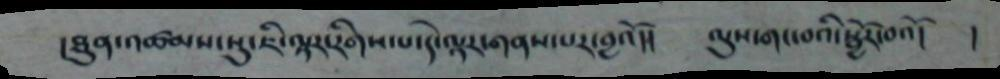།ཐུན་འཚམས་སུ་ཇི་ལྟར་རིགས་པ་དེ་ལྟར་གནས་པར་བྱའོ།། ལུས་གང་བའི་སྦྱོར་བའོ། །
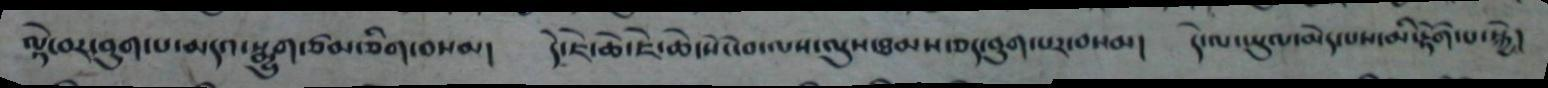ལྟེ་བར་བུག་པ་མདའ་སྨྱུག་ཙམ་ཅིག་བསམ། དེ་ཇེ་ཆེ་ཇེ་ཆེ་སོང་བ་ལས་ལུས་ཐམས་ཅད་བུག་པར་བསམ། དེ་ལ་ཡུལ་མེད་པས་མི་རྟོག་པ་སྐྱེ།
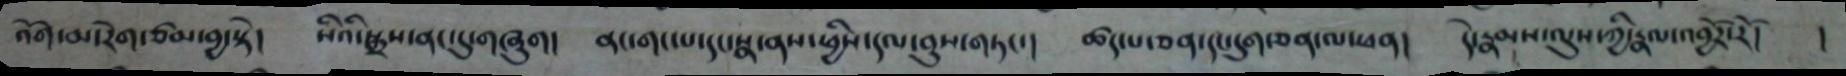འོག་མ་རེག་ཙམ་བྱ་སྟེ། སིའི་སྒྲས་ནང་དུ་གཞུག། ནང་གང་པ་དང་སྣ་ནས་ཕྱིས་དལ་བུས་གཏང་། ཚད་པ་ཅན་དུ་དུག་ཅན་ལ་ཕན། དེ་རྣམས་ལུས་ཀྱི་རྣལ་འབྱོར་རོ། །
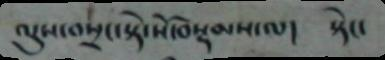ལུས་བསྲང་སྟེ་སོ་བསྡམས་ལ། སྟེང་
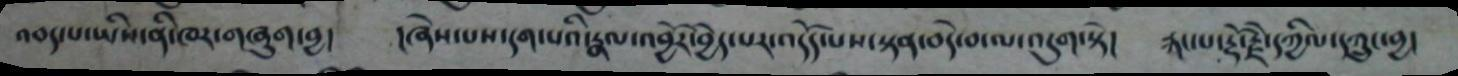འབད་པ་ཡིས་ནི་ཁར་གཞུག་བྱ། །ཞེས་པས་དག་པའི་རྣལ་འབྱོར་བྱེད་པར་འདོད་པས་སྟན་བདེ་བ་ལ་འདུག་སྟེ། རྐང་པ་རྡོ་རྗེ་དཀྱིལ་དཀྲུང་བྱ།
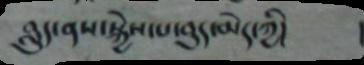བླུད་ནས་སྐྱེས་པ་བུད་མེད་ཀྱི།
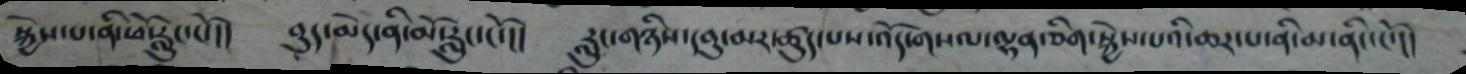སྐྱེས་པ་ནི་ཕོ་རླུང་ངོ་། བུད་མེད་ནི་མོ་རླུང་ངོ་། རླུང་གཉིས་དབུ་མར་ཚུད་པས་འོག་གསལ་ལྷན་ཅིག་སྐྱེས་པའི་ཆར་པ་ནི་མ་ནིང་ངོ་།།
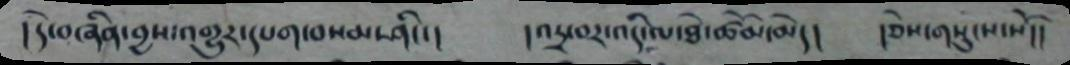།དེ་བཞིན་བྱས་འགྱུར་དཔག་བསམ་ཤིང་། །འདྲ་བར་འདི་ལ་ཐེ་ཚོམ་མེད། །ཅེས་གསུངས་སོ།།
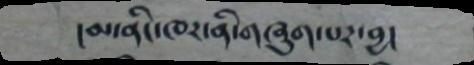།མ་ནིང་ཁར་ནི་གཞུག་པར་བྱ།
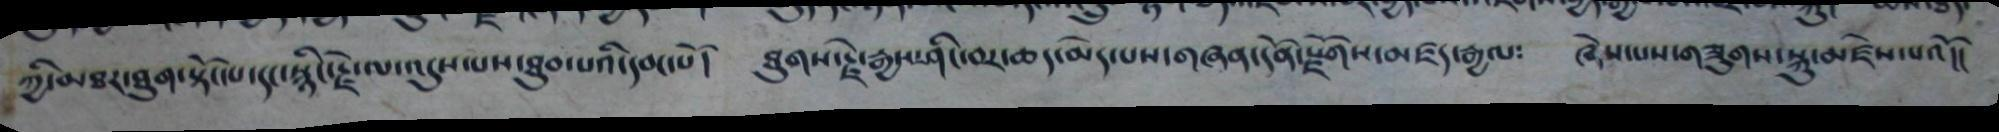ཀྱི་མཐར་ཐུག་སྟོང་པ་དང་སྙིང་རྗེ་ལ་འདུས་པས་ཐུབ་པའི་དབང་པོ། ཐུགས་རྗེ་རྒྱས་ཤིང་བར་ཆད་མེད་པས་གཞན་དོན་སྫོགས་མཛད་རྒྱལ༴ ཞེས་པས་གཟུགས་སྐུ་མཛེས་པའོ།།
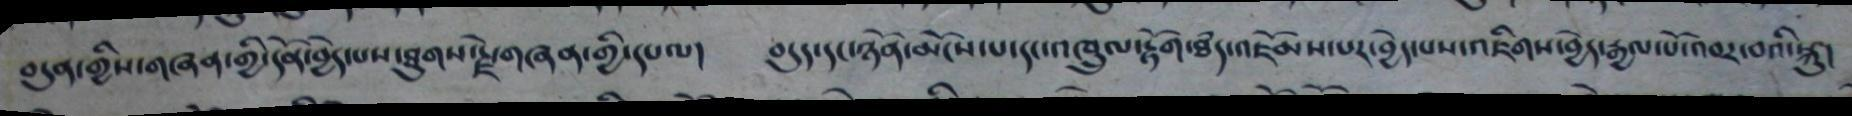བདུན་གྱིས་གཞན་གྱི་དོན་བྱེད་པས་ཐུགས་རྗེ་གཞན་གྱི་དཔལ། བདུད་དང་ཉོན་མོངས་པ་དང་འཁྲུལ་རྟོག་ཐཾད་འཇོམས་པར་བྱེ་དཔས་འཇིགས་བྱེད་རྒྱལ་པོ་འབར་བའི་སྐུ།
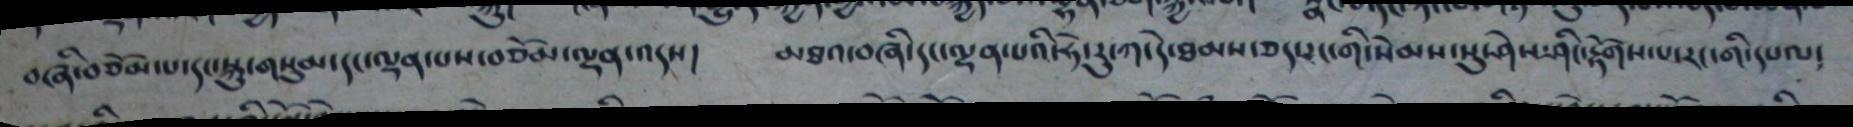བཞི་བཅོམ་པ་དང་སྐུ་གསུམ་དང་ལྡན་པས་བཅོམ་ལྡན་འདས། མཐའ་བཞི་དང་ལྡན་པའི་ཧེ་རུ་ཀ་དེ་ཐམས་ཅད་རང་གི་སེམས་སུ་ཤེས་ཤིང་རྟོགས་པ་རང་གི་དཔལ།
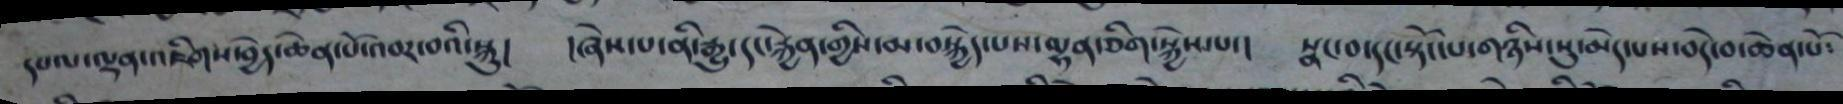དཔལ་ལྡན་འཇིགས་བྱེད་ཆེན་པོ་འབར་བའི་སྐུ། །ཞེས་པ་ནི་རྒྱུ་དང་རྐྱེན་གྱིས་མ་བསྐྱེད་པས་ལྷན་ཅིག་སྐྱེས་པ་། སྣང་བ་དང་སྟོང་པ་གཉིས་སུ་མེད་པས་བདེ་བ་ཆེན་པོ༴
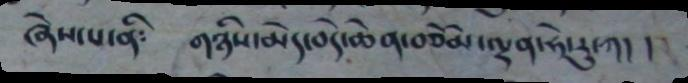ཞེ་ོཔ་ནི༴ གཉིས་མེད་བདེ་ཆེན་བཅོམ་ལྡན་ཧེ་རུ་ཀ། །
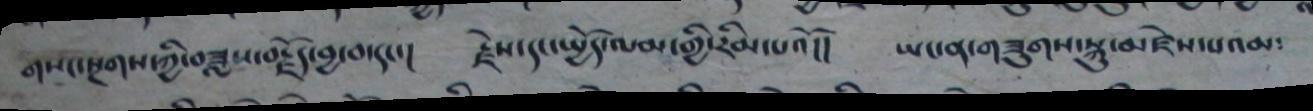གསང་སྔགས་ཀྱི་བཟླས་བརྗོད་བྱ་བ་དང་། རྗེས་དང་སྤྱོད་ལམ་གྱི་རིམ་པའོ།། ཡང་ན་གཟུགས་སྐུ་མཛེས་པའམ༴
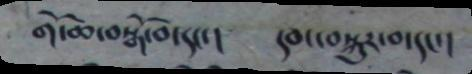གོ་ཆ་བསྒོ་བ་དང་། དབང་བསྐུར་བ་དང་།
